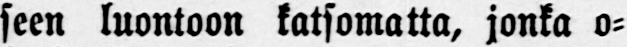seen luontoon katsomatta, jonka o-
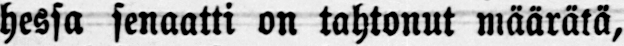hessa senaatti on tahtonut määrätä,
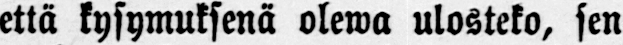että kysymuksenä olewa ulosteko, sen
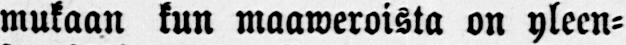mukaan kun maaweroista on yleen-
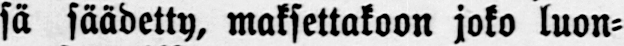sä säädetty, maksettakoon joko luon-
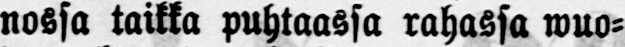nossa taikka puhtaassa rahassa wuo-
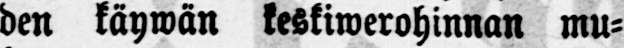den käywän keskiwerohinnan mu-
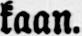kaan.
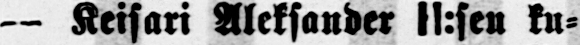— Keisari Aleksander II:sen ku-
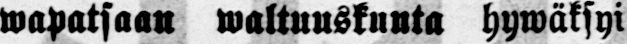vapatsaan waltuuskunta hywäksyi
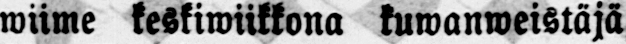wiime keskiwiikkona kuwanweistäjä
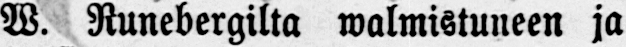M. Runebergiltä walmistuneen ja
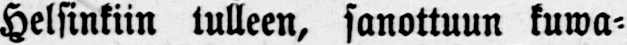Helsinkiin tulleen, sanottuun kuwa-
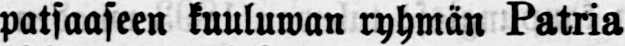patsaaseen kuuluwan ryhmän Patria
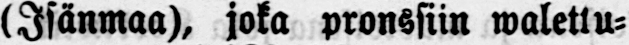(Isänmaa), joka pronssiin walettu-
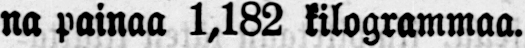na painaa 1,182 kilogrammaa.
